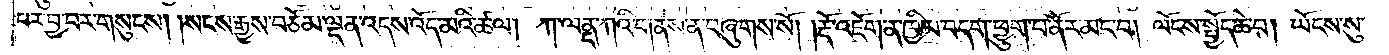པར་བྱ་བར་གསུངས།    །སངས་རྒྱས་བཅོམ་ལྡན་འདས་འོད་མའི་ཚལ། ཀ་ལནྡ་ཀའི་གནས་ན་བཞུགས་སོ། །རྡོ་འཇོག་ན་ཁྱིམ་བདག་ཕྱུག་པ་ནོར་མང་བ། ལངས་སྤྱོད་ཆེ་བ། ཡོངས་སུ་
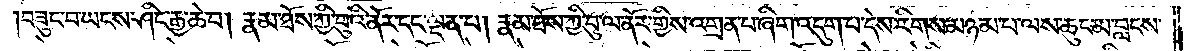།བཟུང་བ་ཡངས་ཤིང་རྒྱ་ཆེ་བ། རྣམ་ཐོས་ཀྱི་བུའི་ནོར་དང་ལྡན་པ། རྣམ་ཐོས་ཀྱི་བུ་ལ་ནོར་གྱིས་འགྲན་པ་ཞིག་འདུག་པ་དེས་རིགས་མཉམ་པ་ལས་ཆུང་མ་བླངས་
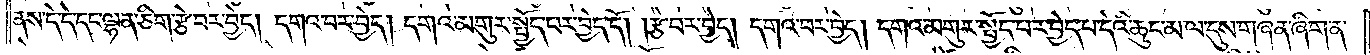ནས་དེ་དེ་དང་ལྷན་ཅིག་རྩེ་བར་བྱེད། དགའ་བར་བྱེད། དགའ་མགུར་སྤྱོད་པར་བྱེད་དོ། །རྩེ་བར་བྱེད། དགའ་བར་བྱེད། དགའ་མགུར་སྤྱོད་པར་བྱེད་པ་དེའི་ཆུང་མ་ལ་དུས་གཞན་ཞིག་ན་
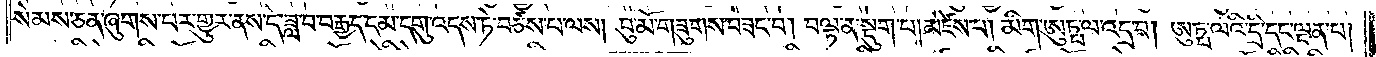སེམས་ཅན་ཞུགས་པར་གྱུར་ནས་དེ་ཟླ་བ་བརྒྱད་དམ་དགུ་འདས་ཏེ་བཙས་པ་ལས། བུ་མོ་གཟུགས་བཟང་བ། བལྟ་ན་སྡུག་པ། མཛེས་པ། མིག་ཨུཏྤ་ལ་འདྲ་བ། ཨུཏྤ་ལའི་དྲི་དང་ལྡན་པ།
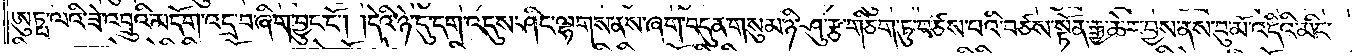ཨུཏྤ་ལའི་ཟེ་འབྲུའི་མདོག་འདྲ་བ་ཞིག་བྱུང་ངོ༌། །དེའི་ཉེ་དུ་དག་འདུས་ཤིང་ལྷགས་ནས་ཞག་བདུན་གསུམ་ཉི་ཤུ་རྩ་གཅིག་ཏུ་བཙས་པའི་བཙས་སྟོན་རྒྱ་ཆེར་བྱས་ནས་བུ་མོ་འདིའི་མིང་
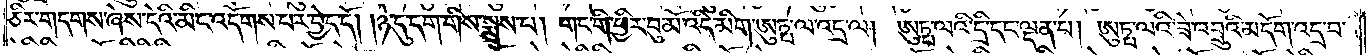ཅིར་གདགས་ཞེས་དེའི་མིང་འདོགས་པར་བྱེད་དོ། །ཉེ་དུ་དག་གིས་སྨྲས་པ། གང་གི་ཕྱིར་བུ་མོ་འདི་མིག་ཨུཏྤ་ལ་འདྲ་ལ། ཨུཏྤ་ལའི་དྲི་དང་ལྡན་པ། ཨུཏྤ་ལའི་ཟེ་འབྲུའི་མདོག་འདྲ་བ་
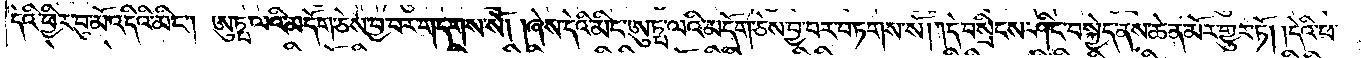དེའི་ཕྱིར་བུ་མོ་འདིའི་མིང༌། ཨུཏྤ་ལའི་མདོག་ཅེས་བྱ་བར་གདགས་སོ། །ཞེས་དེའི་མིང་ཨུཏྤ་ལའི་མདོག་ཅེས་བྱ་བར་བཏགས་སོ། །དེ་བསྲིངས་ཤིང་བསྐྱེད་ནས་ཆེན་མོར་གྱུར་ཏོ། །དེའི་ཕ་
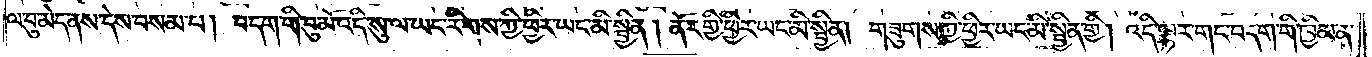ལ་བུ་མེད་ནས་དེས་བསམ་པ། བདག་གི་བུ་མོ་འདི་སུ་ལ་ཡང་རིགས་ཀྱི་ཕྱིར་ཡང་མི་སྦྱིན། ནོར་གྱི་ཕྱིར་ཡང་མི་སྦྱིན། གཟུགས་ཀྱི་ཕྱིར་ཡང་མི་སྦྱིན་གྱི། འདི་ལྟར་གང་བདག་གི་ཁྱིམ་ན་
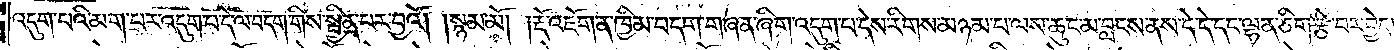འདུག་པའི་མག་པར་འདུག་པ་དེ་ལ་བདག་གིས་སྦྱིན་པར་བྱའོ། །སྙམ་མོ། །རྡོ་འཇོག་ན་ཁྱིམ་བདག་གཞན་ཞིག་འདུག་པ་དེས་རིགས་མཉམ་པ་ལས་ཆུང་མ་བླངས་ནས་དེ་དེ་དང་ལྷན་ཅིག་རྩེ་བར་བྱེད།
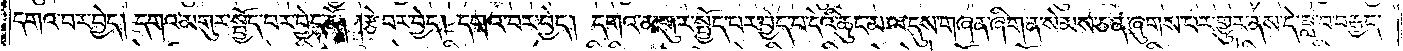དགའ་བར་བྱེད། དགའ་མགུར་སྤྱོད་པར་བྱེད་དོ། །རྩེ་བར་བྱེད། དགའ་བར་བྱེད། དགའ་མགུར་སྤྱོད་པར་བྱེད་པ་དེའི་ཆུང་མ་ལ་དུས་གཞན་ཞིག་ན་སེམས་ཅན་ཞུགས་པར་གྱུར་ནས་དེ་ཟླ་བ་བརྒྱད་
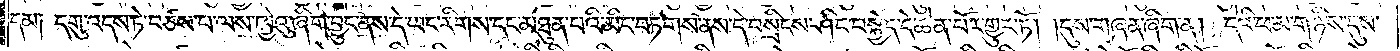དམ༑ དགུ་འདས་ཏེ་བཙས་པ་ལས་ཁྱེའུ་ཞིག་བྱུང་ནས་དེ་ཡང་རིགས་དང་མཐུན་པའི་མིང་བཏགས་ནས་དེ་བསྲིངས་ཤིང་བསྐྱེད་དེ་ཆེན་པོར་གྱུར་ཏོ། །དུས་གཞན་ཞིག་ན། དེའི་ཕ་མ་གཉིས་དུས་
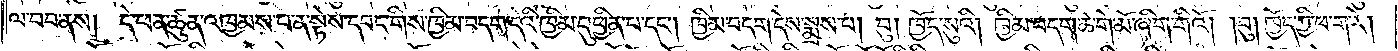ལ་བབ་ནས། དེ་ཕན་ཚུན་འཁྱམས་པ་ན་སྟེས་དབང་གིས་ཁྱིམ་བདག་དེའི་ཁྱིམ་དུ་ཕྱིན་པ་དང༌། ཁྱིམ་བདག་དེས་སྨྲས་པ། བུ། ཁྱོད་སུའི། །ཁྱིམ་བདག་ཆེ་གེ་མོ་ཞིག་གིའོ། །བུ། ཁྱོད་ཀྱི་ཕ་ག་རེ།
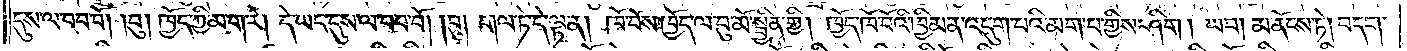དུས་ལ་བབ་བོ། །བུ། ཁྱོད་ཀྱི་མ་ག་རེ། དེ་ཡང་དུས་ལ་བབ་བོ། །བུ། གལ་ཏེ་དེ་ལྟ་ན། ཁོ་བོས་ཁྱོད་ལ་བུ་མོ་སྦྱིན་གྱི། ཁྱོད་ཁོ་བོའི་ཁྱིམ་ན་འདུག་པའི་མག་པ་གྱིས་ཤིག །ཡབ། མ་ནོངས་ཏེ། བདག་
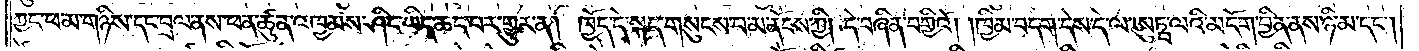ཀྱང་ཕ་མ་གཉིས་དང་བྲལ་ནས་ཕན་ཚུན་འཁྱམས་ཤིང་ཡིད་ཆད་པར་གྱུར་ན། ཁྱོད་དེ་སྐད་གསུངས་པ་མ་ནོངས་ཀྱི། དེ་བཞིན་བགྱིའོ། །ཁྱིམ་བདག་དེས་དེ་ལ་ཨུཏྤ་ལའི་མདོག་བྱིན་ནས་ཉི་མ་དང༌།
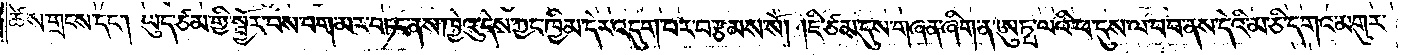ཚེས་གྲངས་དང༌། ཡུད་ཙམ་གྱི་སྦྱོར་བས་བག་མར་བཏང་ནས་ཁྱེའུ་དེས་ཀྱང་ཁྱིམ་དེར་འདུག་པར་བརྩམས་སོ། །ཇི་ཙམ་དུས་གཞན་ཞིག་ན་ཨུཏྤ་ལའི་ཕ་དུས་ལ་བབ་ནས་དེའི་མ་ཅི་དགའ་མགུར་
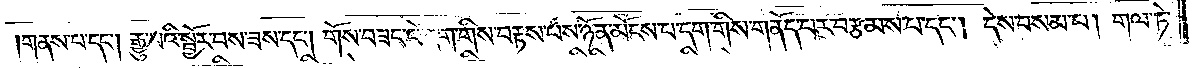གནས་པ་དང༌། རྒྱུ་བའི་སྦྱོར་བས་ཟས་དང༌། གོས་བཟང་པོ་དག་གིས་བརྟས་པས་ཉོན་མོངས་པ་དག་གིས་གནོད་པར་བརྩམས་པ་དང༌། དེས་བསམ་པ། གལ་ཏེ་
